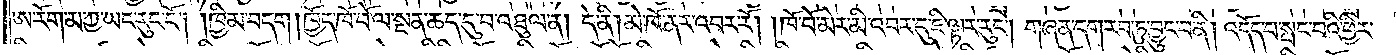ཨ་རོག་མ་ཀྱ་ཡང་རུང་ངོ༌། །ཁྱིམ་བདག །ཁྱོད་ཁོ་བོ་ལ་སྔན་ཆད་དུ་བ་འཐུལ་ན། དེ་ནི། མེ་ཁོ་ནར་འབར་རོ། །ཁོ་བོ་མེར་མི་འབར་དུ་ཇི་ལྟར་རུང༌། གཞན་དག་རབ་ཏུ་བྱུང་བ་ནི། འདོད་པ་སྤང་བའི་ཕྱིར་
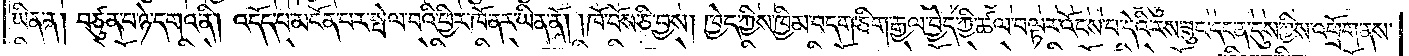ཡིན་ན། བཙུན་པ་ཉེ་དགའ་ནི། འདོད་པ་མངོན་པར་སྤེལ་བའི་ཕྱིར་ཁོ་ནར་ཡིན་ནོ། །ཁོ་བོས་ཅི་བྱས། ཁྱེད་ཀྱིས་ཁྱིམ་བདག་ཅིག་རྒྱལ་བྱེད་ཀྱི་ཚལ་བལྟར་འོངས་པ་དེའི་རས་ཟུང་དང་ན་དུས་ཀྱིས་འཕྲོག་ནས་
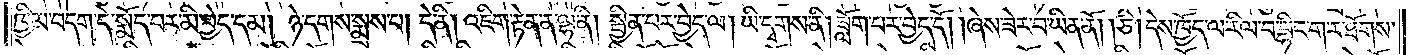ཁྱིམ་བདག་དེ་སྨོད་པར་མི་བྱེད་དམ། ཉེ་དགས་སྨྲས་པ། དེ་ནི། འཇིག་རྟེན་ན་ལྷ་ནི། སྦྱིན་པར་བྱེད་ལ། ཡི་དྭགས་ནི། ཟློག་པར་བྱེད་དོ། །ཞེས་ཟེར་བ་ཡིན་ནོ། །ཅི། དེས་ཁྱོད་ལ་རིལ་བ་བྷིང་གར་ཐོགས་
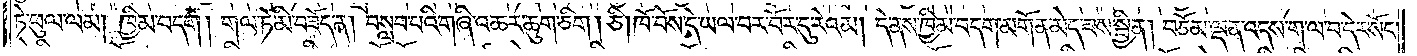ཏེ་ཕུལ་ལམ། ཁྱིམ་བདག །གལ་ཏེ་མི་བཟོད་ན། བསླབ་པའི་གཞི་འཆར་ཆུག་ཅིག །ཅི། ཁོ་བོས་དེ་ཡལ་བར་བོར་དུ་རེའམ། དེ་ནས་ཁྱིམ་བདག་མགོན་མེད་ཟས་སྦྱིན། བཅོམ་ལྡན་འདས་ག་ལ་བ་དེར་སོང་
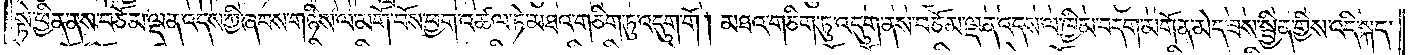སྟེ་ཕྱིན་ནས་བཅོམ་ལྡན་འདས་ཀྱི་ཞབས་གཉིས་ལ་མགོ་བོས་ཕྱག་འཚལ་ཏེ་མཐའ་གཅིག་ཏུ་འདུག་གོ །མཐའ་གཅིག་ཏུ་འདུག་ནས་བཅོམ་ལྡན་འདས་ལ་ཁྱིམ་བདག་མགོན་མེད་ཟས་སྦྱིན་གྱིས་འདི་སྐད་
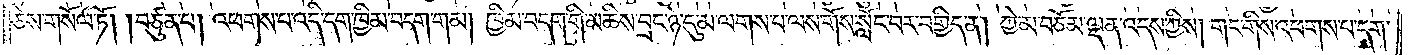ཅེས་གསོལ་ཏོ། །བཙུན་པ། འཕགས་པ་འདི་དག་ཁྱིམ་བདག་གམ། ཁྱིམ་བདག་གི་མཆིས་བྲང་ཉེ་དུ་མ་ལགས་པ་ལས་གོས་སློང་བར་བགྱིད་ན། ཀྱེ་མ་བཅོམ་ལྡན་འདས་ཀྱིས། གང་གིས་འཕགས་པ་དག་
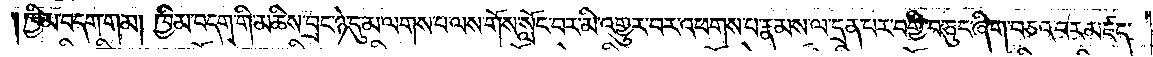ཁྱིམ་བདག་གམ། ཁྱིམ་བདག་གི་མཆིས་བྲང་ཉེ་དུ་མ་ལགས་པ་ལས་གོས་སློང་བར་མི་འགྱུར་བར་འཕགས་པ་རྣམས་ལ་དྲན་པར་བགྱི་བ་ཅུང་ཞིག་བཅའ་བར་མཛད་
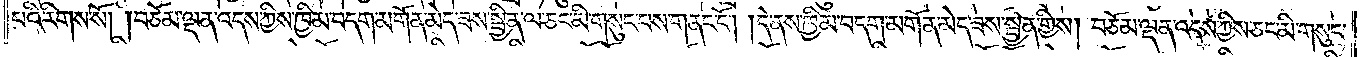པའི་རིགས་སོ། །བཅོམ་ལྡན་འདས་ཀྱིས་ཁྱིམ་བདག་མགོན་མེད་ཟས་སྦྱིན་ལ་ཅང་མི་གསུང་པས་གནང་ངོ༌། །དེ་ནས་ཁྱིམ་བདག་མགོན་མེད་ཟས་སྦྱིན་གྱིས། བཅོམ་ལྡན་འདས་ཀྱིས་ཅང་མི་གསུང་
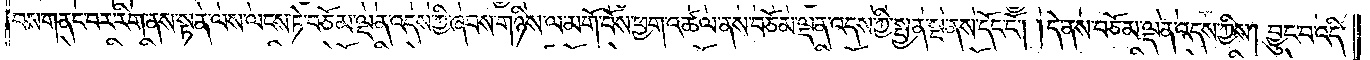བས་གནང་བར་རིག་ནས་སྟན་ལས་ལངས་ཏེ་བཅོམ་ལྡན་འདས་ཀྱི་ཞབས་གཉིས་ལ་མགོ་བོས་ཕྱག་འཚལ་ནས་བཅོམ་ལྡན་འདས་ཀྱི་སྤྱན་སྔ་ནས་དོང་ངོ༌། །དེ་ནས་བཅོམ་ལྡན་འདས་ཀྱིས། བྱུང་བ་འདི་
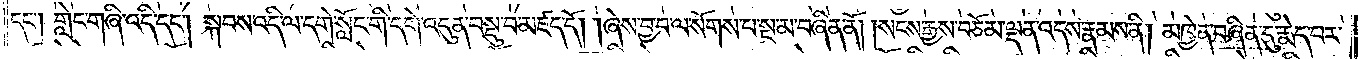དང༌། གླེང་གཞི་འདི་དང༌། སྐབས་འདི་ལ་དགེ་སློང་གི་དགེ་འདུན་བསྡུ་བ་མཛད་དོ། །ཞེས་བྱ་བ་ལ་སོགས་པ་སྔ་མ་བཞིན་ནོ། །སངས་རྒྱས་བཅོམ་ལྡན་འདས་རྣམས་ནི། མཁྱེན་བཞིན་དུ་རྨེད་པར་
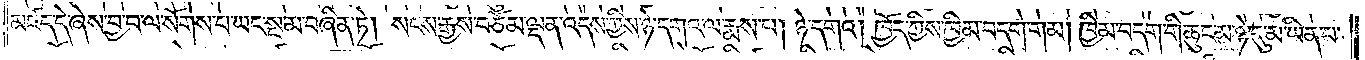མཛད་དེ་ཞེས་བྱ་བ་ལ་སོགས་པ་ཡང་སྔ་མ་བཞིན་ཏེ། སངས་རྒྱས་བཅོམ་ལྡན་འདས་ཀྱིས་ཉེ་དགའ་ལ་རྨས་པ། ཉེ་དགའ། ཁྱོད་ཀྱིས་ཁྱིམ་བདག་གམ། ཁྱིམ་བདག་གི་ཆུང་མ་ཉེ་དུ་མ་ཡིན་པ་
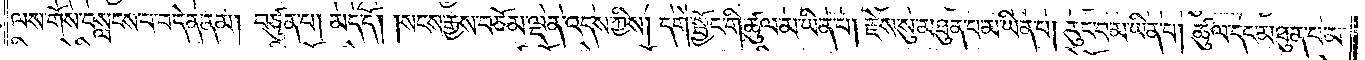ལས་གོས་བསླངས་པ་བདེན་ནམ། བཙུན་པ། མད་དོ། །སངས་རྒྱས་བཅོམ་ལྡན་འདས་ཀྱིས། དགེ་སྦྱོང་གི་ཚུལ་མ་ཡིན་པ། རྗེས་སུ་མཐུན་པ་མ་ཡིན་པ། རུང་བ་མ་ཡིན་པ། ཚུལ་དང་མཐུན་པ་མ་
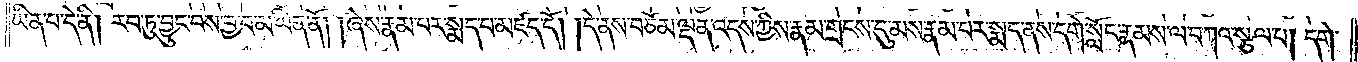ཡིན་པ་དེ་ནི། རབ་ཏུ་བྱུང་བས་བྱ་བ་མ་ཡིན་ནོ། །ཞེས་རྣམ་པར་སྨད་པ་མཛད་དོ། །དེ་ནས་བཅོམ་ལྡན་འདས་ཀྱིས་རྣམ་གྲང་དུ་མས་རྣམ་པར་སྨད་ནས་དགེ་སློང་རྣམས་ལ་བཀའ་སྩལ་པ། དགེ་
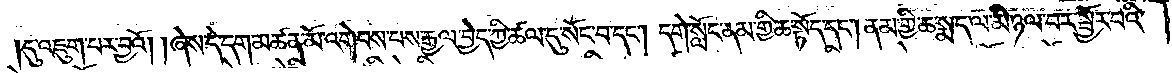དུ་འཇུག་པར་བྱའོ། །ཞེས་དེ་དག་མཚན་མོ་འགེགས་པས་རྒྱལ་བྱེད་ཀྱི་ཚལ་དུ་སོང་བ་དང༌། དགེ་སློང་ནམ་གྱི་ཆ་སྟོད་དང༌། ནམ་གྱི་ཆ་སྨད་ལ་མི་ཉལ་བར་སྦྱོར་བའི་
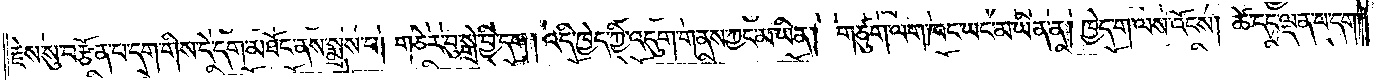རྗེས་སུ་བརྩོན་པ་དག་གིས་དེ་དག་མཐོང་ནས་སྨྲས་པ། གཅེར་བུ་སྒྲེ་བྱི་དག། འདི་ཁྱེད་ཀྱི་འདུག་གནས་ཀྱང་མ་ཡིན། གཙུག་ལག་ཁང་ཡང་མ་ཡིན་ན། ཁྱེད་ག་ལས་འོངས། ཚེ་དང་ལྡན་པ་དག།
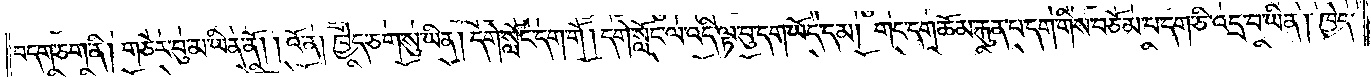བདག་ཅག་ནི། གཅེར་བུ་མ་ཡིན་ནོ། །འོ་ན། ཁྱེད་ཅག་སུ་ཡིན། དགེ་སློང་དག་གོ །དགེ་སློང་ལ་འདི་ལྟ་བུ་དག་ཡོད་དམ། གང་དག་ཆོམ་རྐུན་པ་དག་གིས་བཅོམ་པ་དག་ཅི་འདྲ་བ་ཡིན། ཁྱེད་
